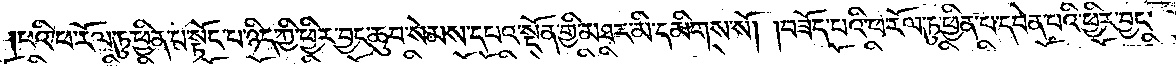པའི་ཕ་རོལ་ཏུ་ཕྱིན་པ་སྟོང་པ་ཉིད་ཀྱི་ཕྱིར་བྱང་ཆུབ་སེམས་དཔའ་སྔོན་གྱི་མཐར་མི་དམིགས་སོ། །བཟོད་པའི་ཕ་རོལ་ཏུ་ཕྱིན་པ་དབེན་པའི་ཕྱིར་བྱང་
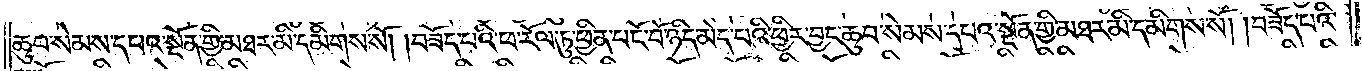ཆུབ་སེམས་དཔའ་སྔོན་གྱི་མཐར་མི་དམིགས་སོ། །བཟོད་པའི་ཕ་རོལ་ཏུ་ཕྱིན་པ་ངོ་བོ་ཉིད་མེད་པའི་ཕྱིར་བྱང་ཆུབ་སེམས་དཔའ་སྔོན་གྱི་མཐར་མི་དམིགས་སོ། །བཟོད་པའི་
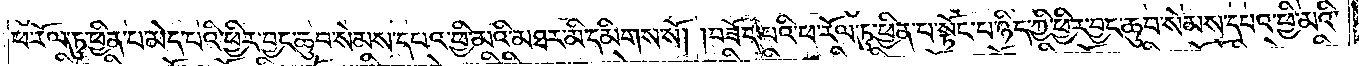ཕ་རོལ་ཏུ་ཕྱིན་པ་མེད་པའི་ཕྱིར་བྱང་ཆུབ་སེམས་དཔའ་ཕྱི་མའི་མཐར་མི་དམིགས་སོ། །བཟོད་པའི་ཕ་རོལ་ཏུ་ཕྱིན་པ་སྟོང་པ་ཉིད་ཀྱི་ཕྱིར་བྱང་ཆུབ་སེམས་དཔའ་ཕྱི་མའི་
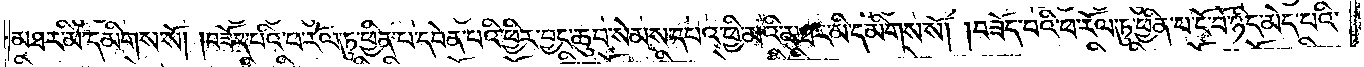མཐར་མི་དམིགས་སོ། །བཟོད་པའི་ཕ་རོལ་ཏུ་ཕྱིན་པ་དབེན་པའི་ཕྱིར་བྱང་ཆུབ་སེམས་དཔའ་ཕྱི་མའི་མཐར་མི་དམིགས་སོ། །བཟོད་པའི་ཕ་རོལ་ཏུ་ཕྱིན་པ་ངོ་བོ་ཉིད་མེད་པའི་
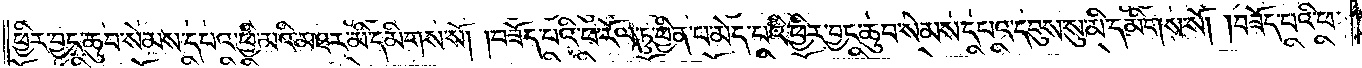ཕྱིར་བྱང་ཆུབ་སེམས་དཔའ་ཕྱི་མའི་མཐར་མི་དམིགས་སོ། །བཟོད་པའི་ཕ་རོལ་ཏུ་ཕྱིན་པ་མེད་པའི་ཕྱིར་བྱང་ཆུབ་སེམས་དཔའ་དབུས་སུ་མི་དམིགས་སོ། །བཟོད་པའི་ཕ་
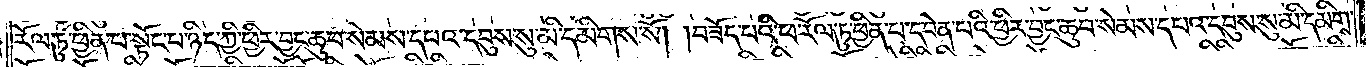རོལ་ཏུ་ཕྱིན་པ་སྟོང་པ་ཉིད་ཀྱི་ཕྱིར་བྱང་ཆུབ་སེམས་དཔའ་དབུས་སུ་མི་དམིགས་སོ། །བཟོད་པའི་ཕ་རོལ་ཏུ་ཕྱིན་པ་དབེན་པའི་ཕྱིར་བྱང་ཆུབ་སེམས་དཔའ་དབུས་སུ་མི་དམིགས་
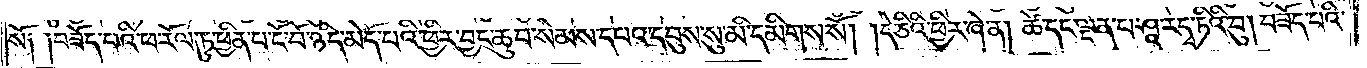སོ༑ ༑བཟོད་པའི་ཕ་རོལ་ཏུ་ཕྱིན་པ་ངོ་བོ་ཉིད་མེད་པའི་ཕྱིར་བྱང་ཆུབ་སེམས་དཔའ་དབུས་སུ་མི་དམིགས་སོ། །དེ་ཅིའི་ཕྱིར་ཞེ་ན། ཚེ་དང་ལྡན་པ་ཤཱ་རདྭ་ཏིའི་བུ། བཟོད་པའི་
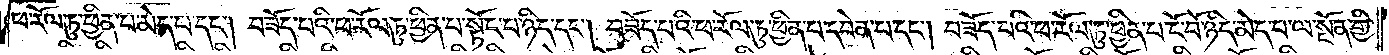ཕ་རོལ་ཏུ་ཕྱིན་པ་མེད་པ་དང༌། བཟོད་པའི་ཕ་རོལ་ཏུ་ཕྱིན་པ་སྟོང་པ་ཉིད་དང༌། བཟོད་པའི་ཕ་རོལ་ཏུ་ཕྱིན་པ་དབེན་པ་དང༌། བཟོད་པའི་ཕ་རོལ་ཏུ་ཕྱིན་པ་ངོ་བོ་ཉིད་མེད་པ་ལ་སྔོན་གྱི་
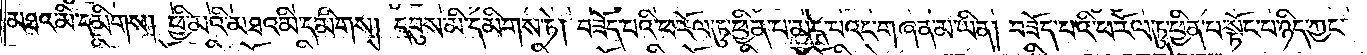མཐའ་མི་དམིགས། ཕྱི་མའི་མཐའ་མི་དམིགས། དབུས་མི་དམིགས་ཏེ། བཟོད་པའི་ཕ་རོལ་ཏུ་ཕྱིན་པ་མེད་པའང་གཞན་མ་ཡིན། བཟོད་པའི་ཕ་རོལ་ཏུ་ཕྱིན་པ་སྟོང་པ་ཉིད་ཀྱང་
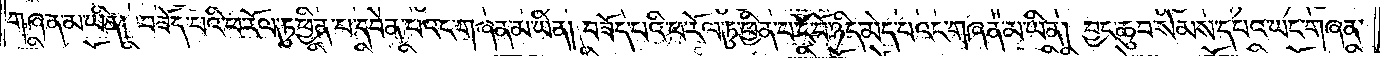གཞན་མ་ཡིན། བཟོད་པའི་ཕ་རོལ་ཏུ་ཕྱིན་པ་དབེན་པའང་གཞན་མ་ཡིན། བཟོད་པའི་ཕ་རོལ་ཏུ་ཕྱིན་པ་ངོ་བོ་ཉིད་མེད་པའང་གཞན་མ་ཡིན། བྱང་ཆུབ་སེམས་དཔའ་ཡང་གཞན་
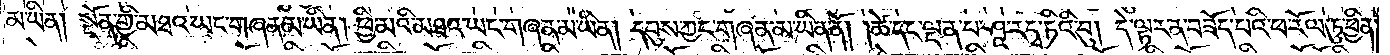མ་ཡིན། སྔོན་གྱི་མཐའ་ཡང་གཞན་མ་ཡིན། ཕྱི་མའི་མཐའ་ཡང་གཞན་མ་ཡིན། དབུས་ཀྱང་གཞན་མ་ཡིན་ནོ། །ཚེ་དང་ལྡན་པ་ཤཱ་རདྭ་ཏིའི་བུ། དེ་ལྟར་ན་བཟོད་པའི་ཕ་རོལ་ཏུ་ཕྱིན་
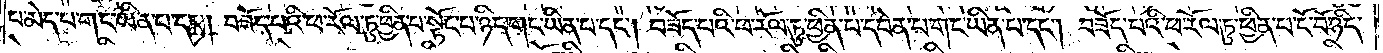པ་མེད་པ་གང་ཡིན་པ་དང༌། བཟོད་པའི་ཕ་རོལ་ཏུ་ཕྱིན་པ་སྟོང་པ་ཉིད་གང་ཡིན་པ་དང༌། བཟོད་པའི་ཕ་རོལ་ཏུ་ཕྱིན་པ་དབེན་པ་གང་ཡིན་པ་དང༌། བཟོད་པའི་ཕ་རོལ་ཏུ་ཕྱིན་པ་ངོ་བོ་ཉིད་
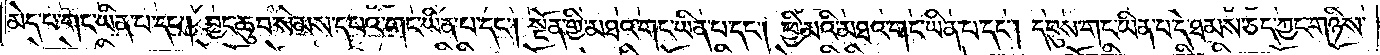མེད་པ་གང་ཡིན་པ་དང༌། བྱང་ཆུབ་སེམས་དཔའ་གང་ཡིན་པ་དང༌། སྔོན་གྱི་མཐའ་གང་ཡིན་པ་དང༌། ཕྱི་མའི་མཐའ་གང་ཡིན་པ་དང༌། དབུས་གང་ཡིན་པ་དེ་ཐམས་ཅད་ཀྱང་གཉིས་
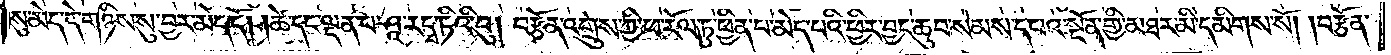སུ་མེད་དེ་གཉིས་སུ་བྱར་མེད་དོ། །ཚེ་དང་ལྡན་པ་ཤཱ་རདྭ་ཏིའི་བུ། བརྩོན་འགྲུས་ཀྱི་ཕ་རོལ་ཏུ་ཕྱིན་པ་མེད་པའི་ཕྱིར་བྱང་ཆུབ་སེམས་དཔའ་སྔོན་གྱི་མཐར་མི་དམིགས་སོ། །བརྩོན་
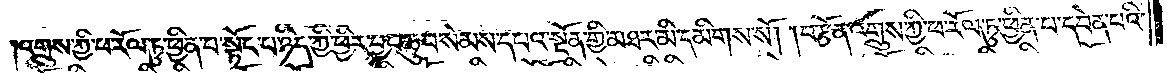འགྲུས་ཀྱི་ཕ་རོལ་ཏུ་ཕྱིན་པ་སྟོང་པ་ཉིད་ཀྱི་ཕྱིར་བྱང་ཆུབ་སེམས་དཔའ་སྔོན་གྱི་མཐར་མི་དམིགས་སོ། །བརྩོན་འགྲུས་ཀྱི་ཕ་རོལ་ཏུ་ཕྱིན་པ་དབེན་པའི་
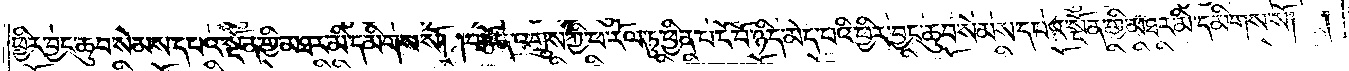ཕྱིར་བྱང་ཆུབ་སེམས་དཔའ་སྔོན་གྱི་མཐར་མི་དམིགས་སོ། །བརྩོན་འགྲུས་ཀྱི་ཕ་རོལ་ཏུ་ཕྱིན་པ་ངོ་བོ་ཉིད་མེད་པའི་ཕྱིར་བྱང་ཆུབ་སེམས་དཔའ་སྔོན་གྱི་མཐར་མི་དམིགས་སོ། །
